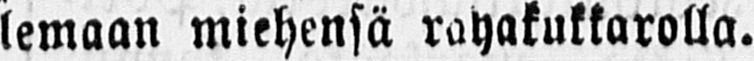lemaan miehensä rahakukkarolla.
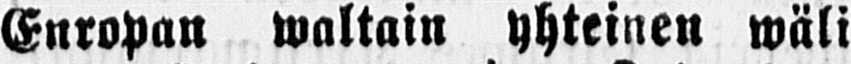Enropan waltain yhteinen wäli
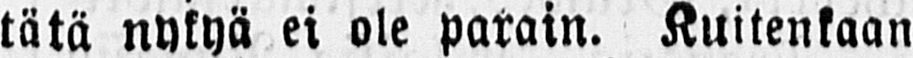tätä nykyä ei ole parain. Kuitenkaan
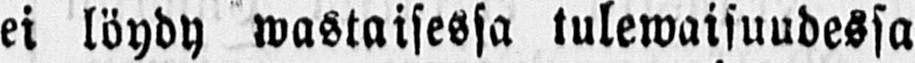ei löydy wastaisessa tulewaisuudessa
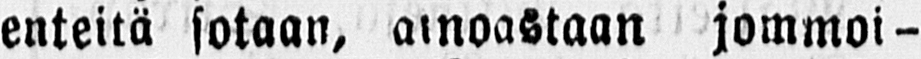enteitä sotaan, amoastaan jommoi-
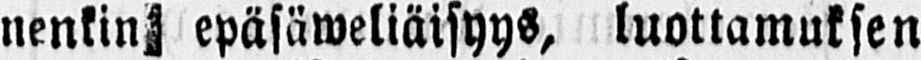nenkin epäsäweliäisyys, luottamuksen
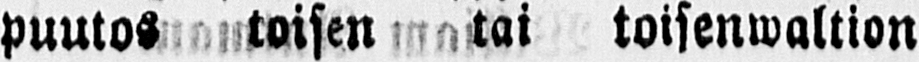puutos toisen tai toisenwaltion
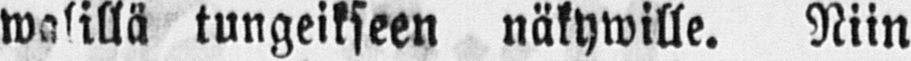walillä tungeikseen näkywille. Niin
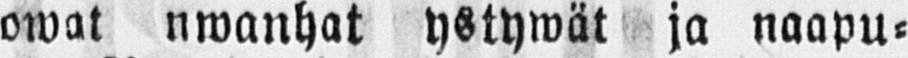owat nwanhat ystywät ja naapu-
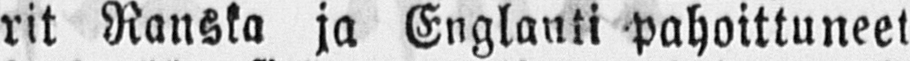rit Ranska ja Englanti pahoittuneet
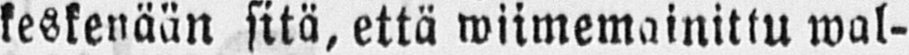keskenään sitä, että wiimemainittu wal-
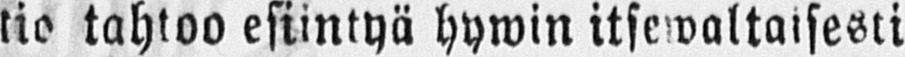tio tahtoo esiintyä hywin itse waltaisesti
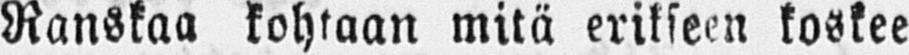Ranskaa kohtaan mitä erikseen koskee
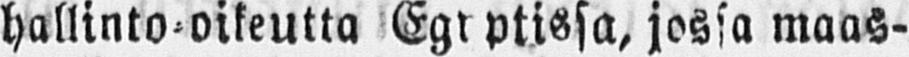hallinto-oikeutta Egyptissa, jossa maas-
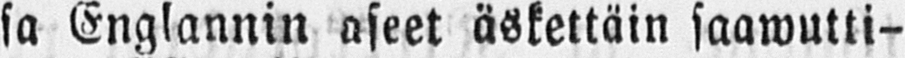sa Englannin aseet äskettäin saawutti-
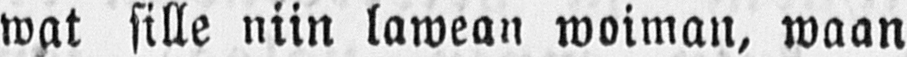wat sille niin lawean woiman, waan
